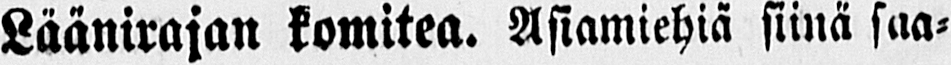Läänirajan komitea. Asiamiehiä siinä saa-
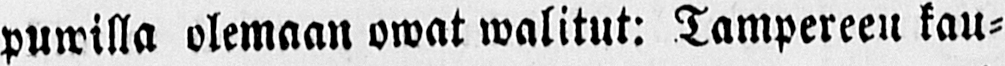puwilla olemaan owat walitut: Tampereen kau-
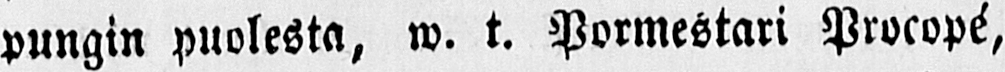pungin puolesta, w. t. Pormestari Procopé,
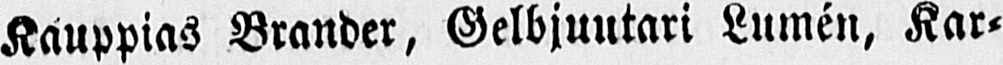Kauppias Brander, Gelbjuutari Lumén, Kar-
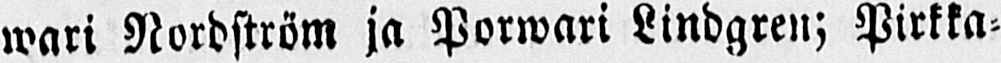wari Nordström ja Porwari Lindgren; Pirkka-
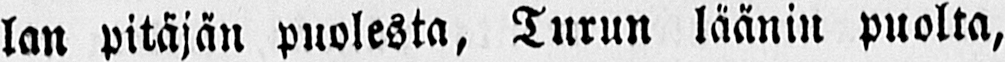lan pitäjän puolesta, Turun läänin puolta,
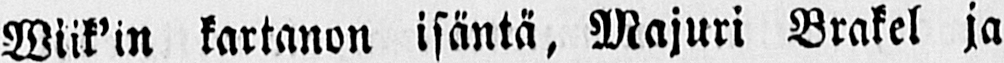Wiik'in kartanon isäntä, Majuri Brakel ja
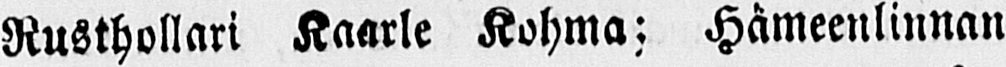Rusthollari Kaarle Kohma; Hämeenlinnan
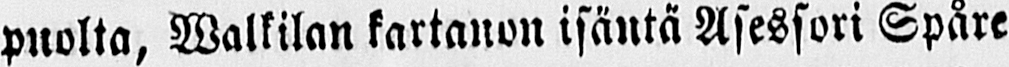puolta, Walkilan kartanon isäntä Asessori Spåre
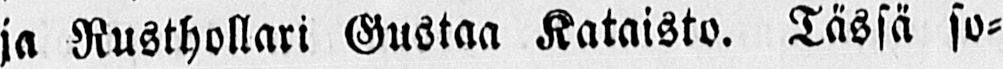ja Rusthollari Gustaa Kataisto. Tässä so-
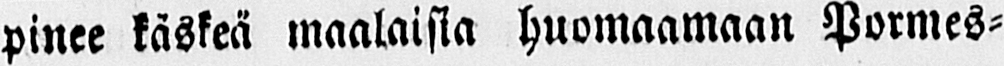pinee käskeä maalaisia huomaamaan Pormes-
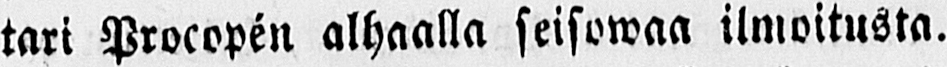tari Procopén alhaalla seisowaa ilmoitusta.
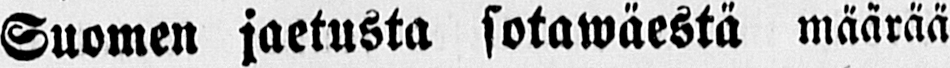Suomen jaetusta sotawäestä määrää
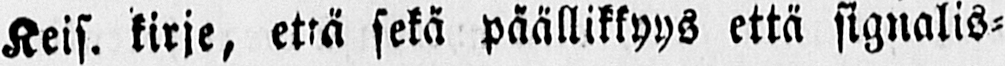Keis. kirje, että sekä päällikkyys että signalis-
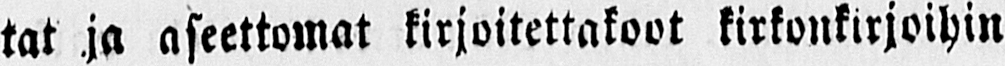tat ja aseettomat kirjoitettakoot kirkonkirjoihin
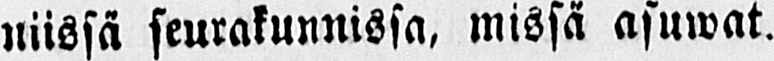niissä seurakunnissa, missä asuwat.
